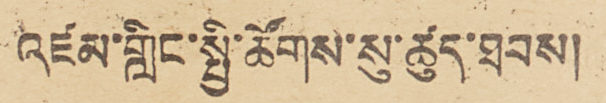འཛམ་གླིང་སྤྱི་ཚོགས་སུ་ཚུད་ཐབས།
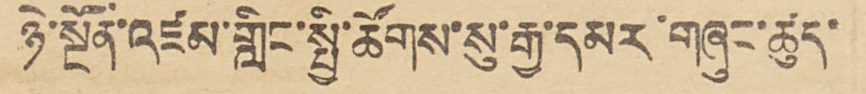ཉེ་སྔོན་འཛམ་གླིང་སྤྱི་ཚོགས་སུ་རྒྱ་དམར་གཞུང་ཚུད་
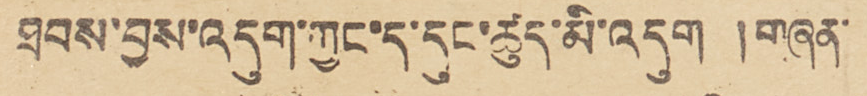ཐབས་བྱས་འདུག་ཀྱང་ད་དུང་ཚུད་མི་འདུག །གཞན་
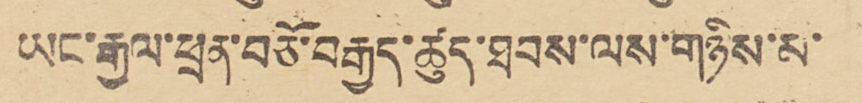ཡང་རྒྱལ་ཕྲན་བཅོ་བརྒྱད་ཚུད་ཐབས་ལས་གཉིས་མ་
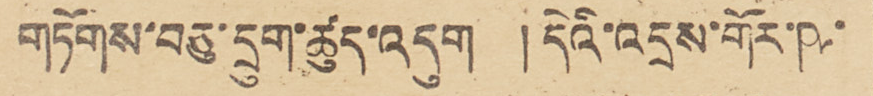གཏོགས་བཅུ་དྲུག་ཚུད་འདུག །དེའི་འདྲས་གོར་ཥ་
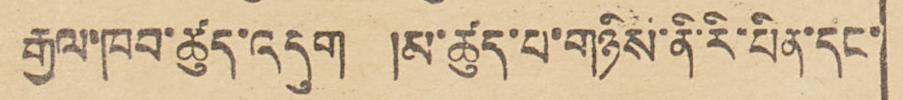རྒྱལ་ཁབ་ཚུད་འདུག །མ་ཚུད་པ་གཉིས་ནི་རི་པིན་དང་
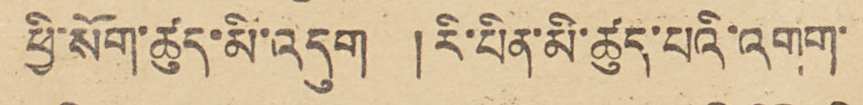ཕྱི་སོག་ཚུད་མི་འདུག ། རི་པིན་མི་ཚུད་པའི་འགག་
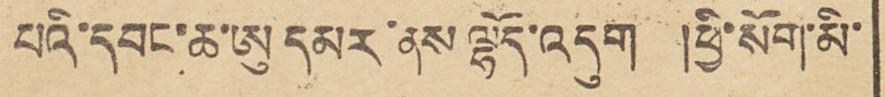པའི་དབང་ཆ་ཨུ དམར་ནས ལྷོད་འདུག །ཕྱི་སོག་མི་
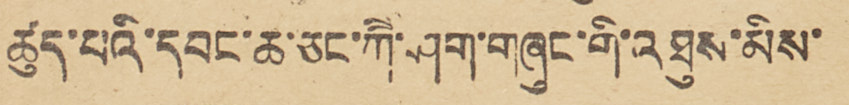ཚུད་པའི་དབང་ཆ་ཅང་ཀཻ་ཤག་གཞུང་གི་འཐུས་མིས་
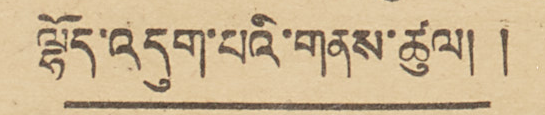ལྷོད་འདུག་པའི་གནས་ཚུལ། །
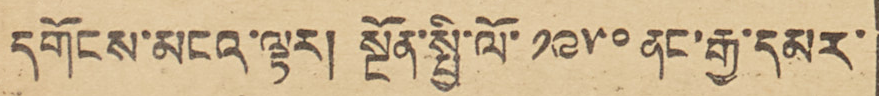དགོངས་མངའ་ལྟར། སྔོན་སྤྱི་ལོ་ ༡༩༥༠ ནང་རྒྱ་དམར་
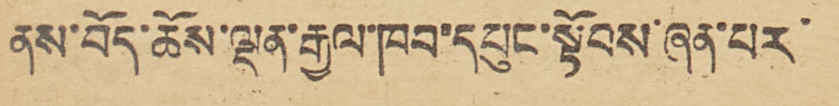ནས་བོད་ཆོས་ལྡན་རྒྱལ་ཁབ་དཔུང་སྟོབས་ཞན་པར་
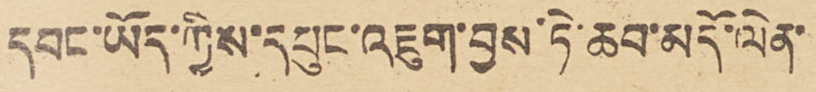དབང་ཡོད་ཀྱིས་དཔུང་འཇུག་བྱས་ཏེ་ཆབ་མདོ་ལེན་
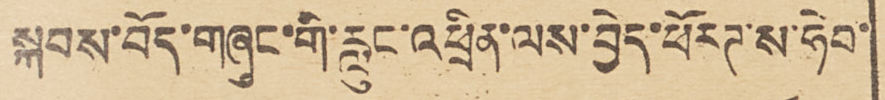སྐབས་བོད་གཞུང་གི་རླུང་འཕྲིན་ལས་བྱེད་ཕོརཊ་ས་ཧེབ་
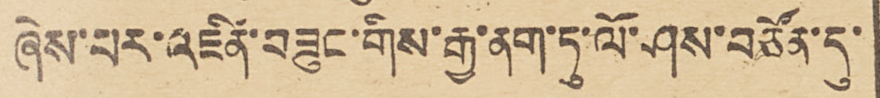ཞེས་པར་འཛིན་བཟུང་གིས་རྒྱ་ནག་ཏུ་ལོ་ཤས་བཙོན་དུ་
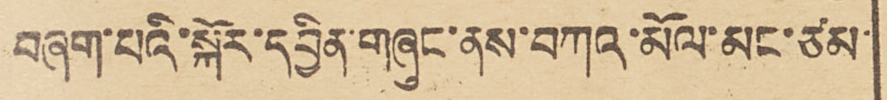བཞག་པའི་སྐོར་དབྱིན་གཞུང་ནས་བཀའ་མོལ་མང་ཙམ་
